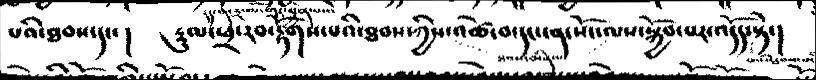པའི་ཐབས་དང་།  རྡུལ་ཕྲ་རབ་རྟོགས་པའི་ཐབས་ཀྱིས་ཐབས་ནིན་པ་འཚེ་བ་དང་ངན་སོང་ལས་སྐྱོབ་པར་འདོད་སྟེ་།
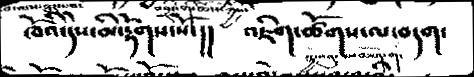ཁོའི་དེས་མི་རྟོགས་སོ་།།  འཇིག་ཚོགས་ལ་བདག་
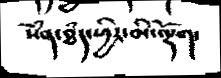སེཾན་ཐཾད་ཕྱིར་མི་ལྡོག་
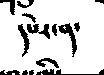དཔེར་ན་
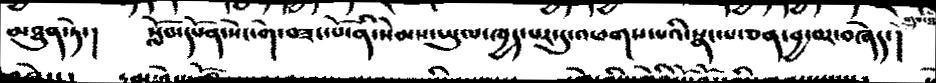མཐུན་ཏེ་།   སློབ་དཔོན་སེང་གེ་བཟང་པོ་ནི་སེམས་ཡུལ་ཁྱད་པར་དུ་འཕགས་པའི་སྣང་པ་ཅན་བྱ་བར་བཞེད་།
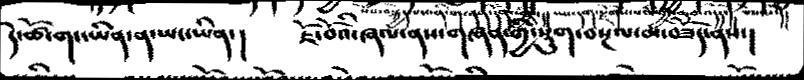དེ་ཚོ་གང་ཡིན་ན་ཡང་ཡིན་།  ཇོ་བོའི་ཞལ་ནས་གཞན་གྱི་སྡུག་བསྔལ་མ་བཟོད་ནས་།
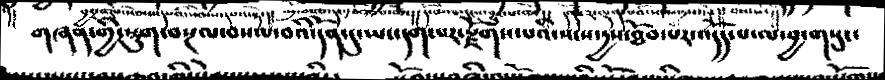གཞན་གྱི་སྡུག་བསྔལ་བསལ་བའི་དོན་དུ་ཡང་དག་པར་རྫོགས་པའི་སངས་དྱས་ཐོབ་པར་འདོད་པ་ལ་བྱ་གསུང་
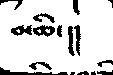མཆི་།།
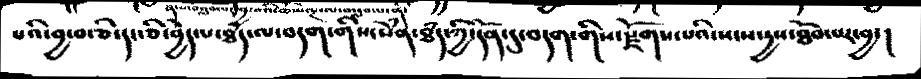པའི་བྱ་བ་ཅི་དང་ཅི་བྱེད་པ་ཐཾད་ལ་བདག་གིས་སེཾན་ཐཾད་ཀྱི་དོན་དུ་བདག་གིས་རྫོགས་པའི་སངས་དྱས་ཐོབ་པར་བྱ་།
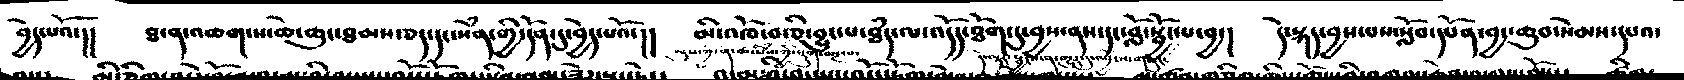བྱེད་པའོ་།།  ཐ་ན་འཆག་ས་ཆེ་ཆུང་ཐམས་ཅད་དང་སེཾན་གྱི་དོན་དུ་བྱེད་པའོ་།།  མི་འཁོ་བ་ཅི་བྱུང་པ་ཐཾད་ལ་འདོད་ཐོག་དུ་བྱས་ནས་དང་བློ་སྦྱོང་པ་བྱ་།  དེ་སྐད་བྱས་པས་སློབ་དཔོན་བྱང་ཆུབ་སེམས་དཔའ་
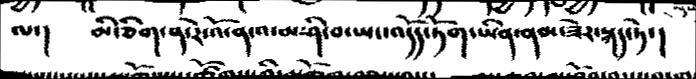ལ་།  མི་ཅིག་ན་རེ་འོ་ན་འ་མཤི་བ་ཡང་འདོད་ཏོག་ཡིན་ནམ་ཟེར་སྐད་ཏེ་།
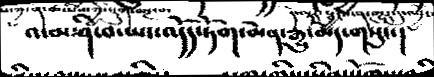འ་མ་ཤི་བ་ཡང་འདོད་ཏོག་མེན་རྒྱུ་མེད་གསུང་།
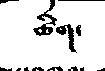ཚིག་
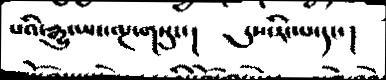པའི་རྒྱུ་ཡང་ལྔ་གསུང་།  དུས་རིང་པ་དང་།
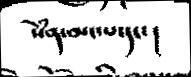སེཾན་མང་པ་དང་།
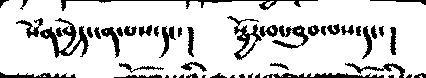སེཾན་བྱེད་ན་པས་དང་།  སྦྱོར་བ་རྩུབ་པས་དང་།
